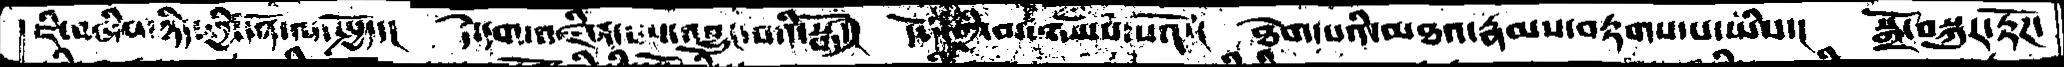ཇི་བཞིན་ཉིད་ཀྱི་དོན་ལ་སྤྱོད་།  དེ་དག་འཛིན་པས་འབྱུང་བའི་སྒོ་།  དོན་གྱི་མ་གཡོས་པའོ་།  ཐེག་པའི་མཐའ་རྣམས་བརྟགས་པ་ཡིས་།  སྒྲོ་བསྐུར་རྟོཌ་
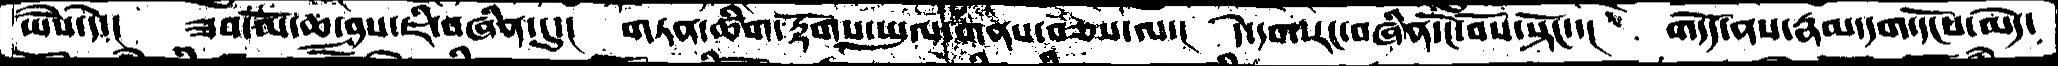ཡཻས་དེ་།  ཟབ་མོ་ཆ་ཤས་ཇི་བཞིན་དུ་།  གཏན་ཚིག་རྟོགས་ཡུལ་གནས་བཅས་ལ་།  དེ་དག་རང་བཞིན་ངོ་བོས་སྟོང་་།  གདོད་ནས་རྣམ་དག་དངོས་མེད་
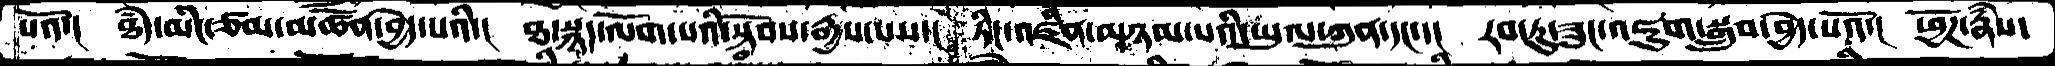པའོ་།  ཐཾད་མིང་ཙམ་མཚོན་བྱེད་པའི་།  ཐ་སྙད་ལོག་པའི་སྟོབས་རྒྱས་པས་།  ཏིང་འཛིན་མཉམ་པའི་ཡུལ་ཀུན་དང་་།  རབ་ཏུ་ཟུང་འཇུག་སྒྲུབ་བྱེད་པའོ་།  ཕྱོཌ་རྣཾས་
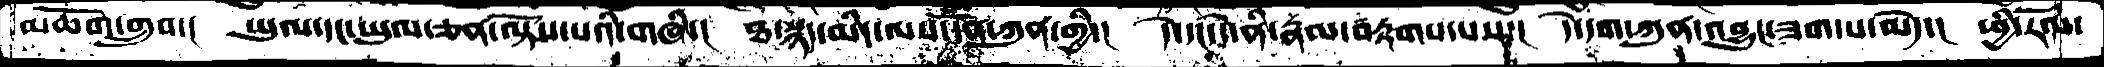མཆོག་གྲུབ་།   ཡུལ་དང་ཡུལ་ཅན་ལྟོས་པའི་གཞི་།  ཐ་སྙད་མིད་ལས་དོན་ཀུན་གྱི་།  དེ་དང་དེ་ནི་རྣམ་བརྟགས་པས་།  དེ་དག་ཀུན་འབྱུང་ཟག་པ་མེད་།  ཕྱི་རོལ་
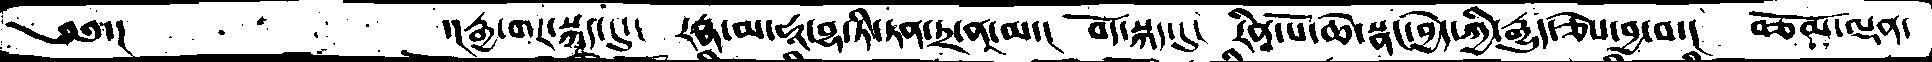༄༅་།           ་།རྒྱ་གར་སྐད་དུ་།  རཏྣ་མ་ཧཱ་བྷ་ཏི་ཏན་ཏྲ་ནཱ་མ་།  བོད་སྐད་དུ།   རིན་པོ་ཆེ་སྣང་བྱེད་ཀྱི་རྒྱུད་ཅེས་བྱ་བ་།  བཅོམ་ལྡན་
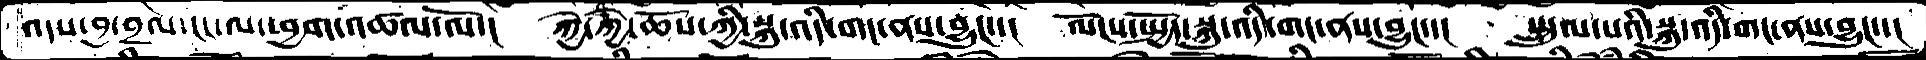འདས་བྱབྲལ་ངང་ལ་ཕྱག་འཚལ་ལོ་།  ཀྱེ་ཀྱེ་ཆོས་ཀྱི་སྐུ་འདི་གང་ནས་བྱུང་་།  ལོངས་སྤྱོད་སྐུ་འདི་གང་ནས་བྱུང་་།  སྤྲུལ་པའི་སྐུ་འདི་གང་ནས་བྱུང་་།
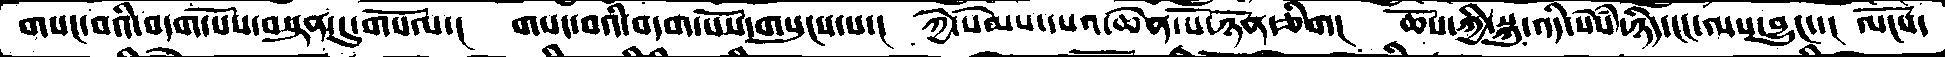གསང་བའི་བདག་པོས་བསྟན་དུ་གསོལ་།  གསང་བའི་བདག་པོས་གསུངས་པ་།  ཀྱེ་སེམས་དཔའ་ཆེན་པོ་ཉོན་ཅིག།  ཆོས་ཀྱི་སྐུ་འདི་སེསཾ་ཉིད་ངང་ལས་བྱུང་་།  ལོངས་
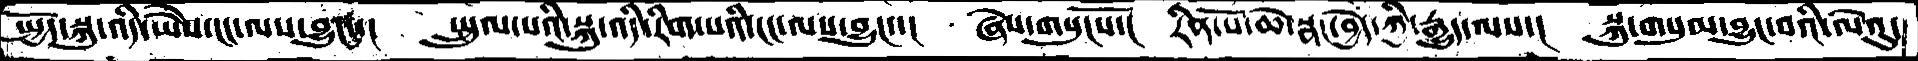སྤྱོད་སྐུ་འདི་ཡཻས་ངང་ལས་བྱུང་། སྤྲུལ་པའི་སྐུ་འདི་རིག་པའི་ངང་ལས་བྱུང་་། ཞེས་གསུངསོ་། རིན་པོ་ཆེ་སྣང་བྱེད་ཀྱི་རྒྱུད་ལས་། སྐུ་གསུམ་བྱུང་བའི་ལེའུ་
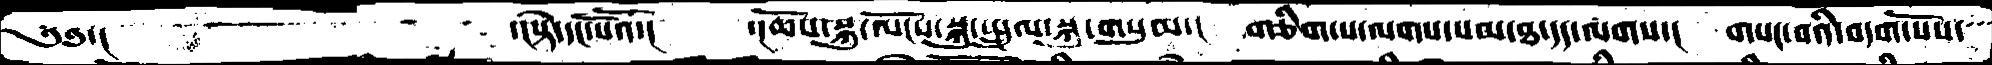༄༅་།           ་།སྟེ་དང་པོའོ་།  ་།ཆོས་སྐུ་ལོངས་སྐུ་སྤྲུལ་སྐུ་གསུམ་།  གཅིག་པ་ལགས་སམ་ཐ་དད་ལགས་།  གསང་བའི་བདག་པོས་
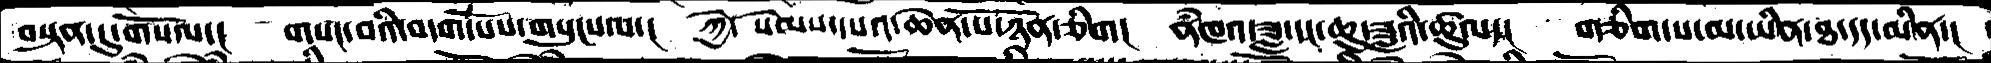བསྟན་དུ་གསོལ་།  གསང་བའི་བདག་པོས་གསུངས་པ་།  ཀྱེ་ སེམས་དཔའ་ཆེན་པོ་ཉོན་ཅིག།  ནཾཁའ་ཟླ་དང་ཆུ་ཟླའི་ཚུལ་།  གཅིག་པ་མ་ཡིན་ཐ་དད་མིན་།
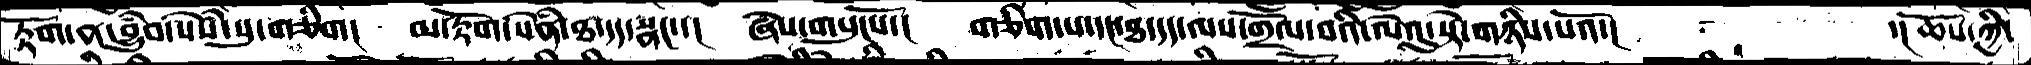རྟོག་ན་བྱུཾབ་སེཾས་སུ་གཅིག།  མ་རྟོག་སེཾན་ཐ་དད་སྣང་་།  ཞེས་གསུངསོ་།  གཅིག་པ་དང་ཐ་དད་ལས་གྲོལ་བའི་ལེའུ་སྟེ་གཉིས་པའོ་།         ་།ཆོས་ཀྱི་
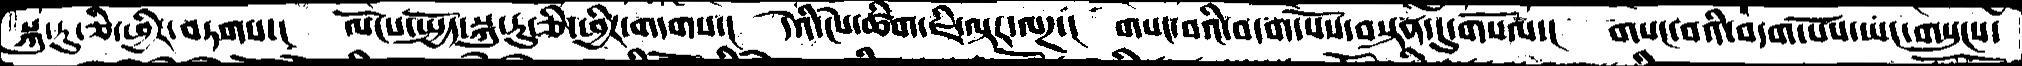སྐུ་རུ་ཅི་ཕྱིར་བཏགས་།   ལོངས་སྤྱོད་སྐུ་རུ་ཅི་ཕྱིར་གདགས་།  དེའི་ངེས་ཚིག་ཇི་ལྟར་ལཌ་།  གསང་བའི་བདག་པོས་བསྟན་དུ་གསོལ་།  གསང་བའི་བདག་པོས་ཡང་གསུངས་
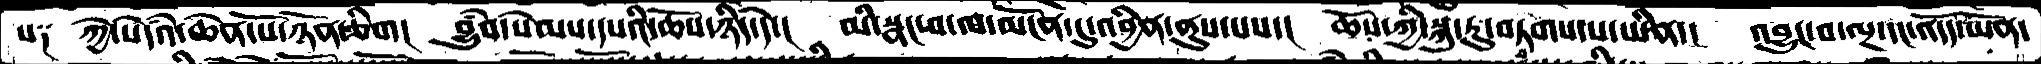པ༑  ཀྱེ་སེདཾའ་ཆེན་པོ་ཉོན་ཅིག།  བྱུཾབ་སེམས་དཔའི་ཆོས་ཉིད་དེ་།  མི་སྣང་བ་ལ་མངོན་དུ་འབྱིན་ནུས་པས་།  ཆོས་ཀྱི་སྐུ་རུ་བཏགས་པ་ཡིན་།  འབྱུང་བ་ལྔ་དང་འདོད་ཡོན་
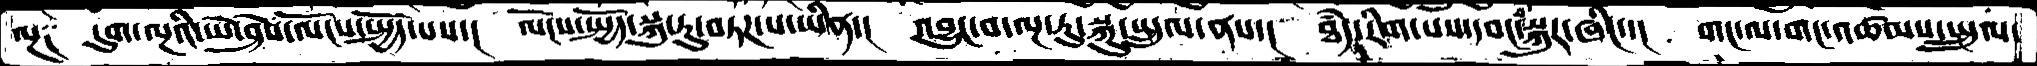ལྔ༑  དུག་ལྔའི་ཡེ་ཤེས་ལོངས་སྤྱོད་པས་།  ལོངས་སྤྱོད་སྐུ་རུ་བཏཌ་པ་ཡིན་།  འབྱུང་བ་ལྔ་རུ་སྐུ་སྤྲུལ་ནས་།  ཐཾད་རིག་པས་དབང་སྐུར་ཞིང་་།  གང་ལ་གང་འཚམས་སྤྲུལ་
